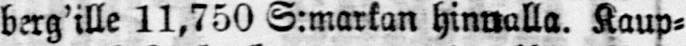berg'ille 11,750 S:markan hinnalla. Kaup-
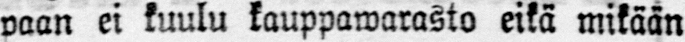paan ei kuulu kauppawarasto eikä mikään
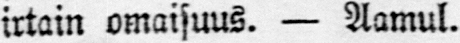irtain omaisuus. — Aamul.
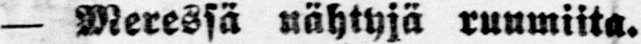— Meressä nähtyjä ruumiita.
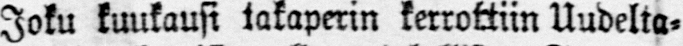Joku kuukausi takaperin kerrottiin Uudelta-
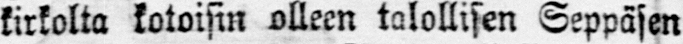kirkolta kotoisin olleen talollisen Seppäsen
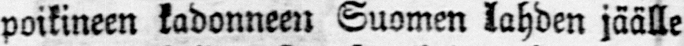poikineen kadonneen Suomen lahden jäälle
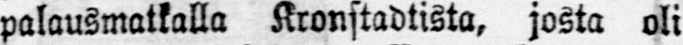palausmatkalla Kronstadtista, josta oli
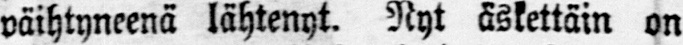päihtyneenä lähtenyt. Nyt äskettäin on
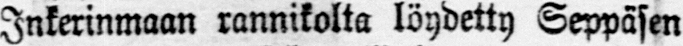Inkerinmaan rannikolta löydetty Seppäsen
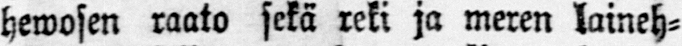hewosen raato sekä reki ja meren laineh-
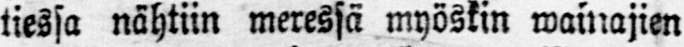tiessa nähtiin meressä myöskin wainajien
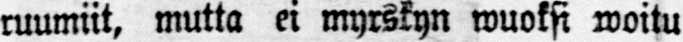ruumiit, mutta ei myrskyn wuoksi woitu
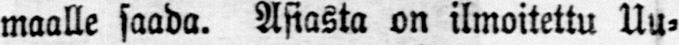maalle saada. Asiasta on ilmoitettu Uu-
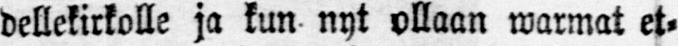dellekirkolle ja kun nyt ollaan warmat et-
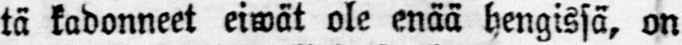tä kadonneet eiwät ole enää hengissä, on
